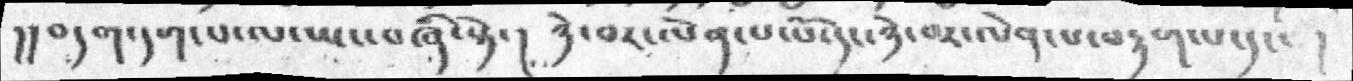།།བདག་དག་པ་ལ་ཡང་བཞི་སྟེ་།  ཉེ་བར་ལེན་པ་པོ་དང་ཉེ་བར་ལེན་པ་བརྟག་པ་དང་ །
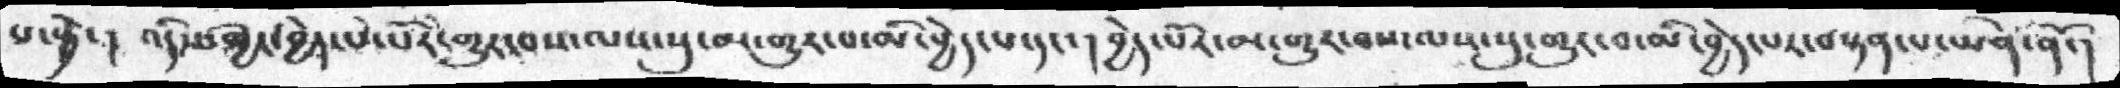པ་སྟེ་།   འདིས་གྱེར་བྱེད་པ་པོ་གྱུར་བས་ལས་སུ་མ་གྱུར་པ་མི་བྱེད་པ་དང་།  བྱེད་པོར་མ་གྱུར་བས་ལས་སུ་གྱུར་བ་མི་བྱེད་པར་བསྟན་པ་ཡིན་ནོ་།
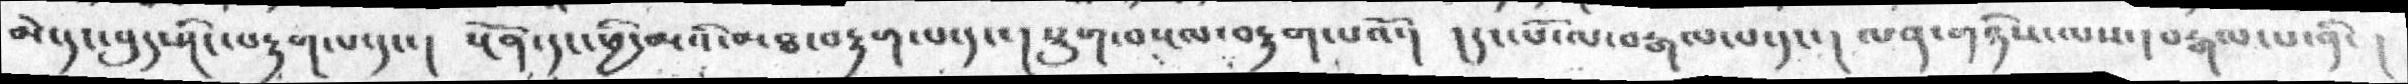མེ་དང་བུད་ཤིང་བརྟག་པ་དང་། སྔོན་དང་ཕྱི་མའི་མཐ་བརྟག་པ་དང་། སྡུག་བསྔལ་བརྟག་པའོ་།  །དང་པོ་ལ་བརྒལ་པ་དང་། ལན་གཉིས་ལས་། བརྒལ་པ་ནི་།
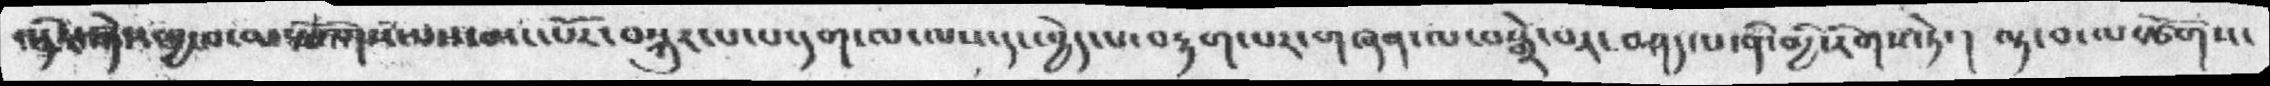འདིར་ཞེས་བྱ་བ་ལསྩོགས་པས་མང་པོ་བསྐུར་པ་པ་དག་ལ་ལས་དང་བྱེད་པ་བརྟག་པར་གཞན་ལ་བསྒྲེ་པར་བཤད་པ་ནི་མྱི་རིགས་ཏེ་།  ལྟ་བ་ལསྩོགས་
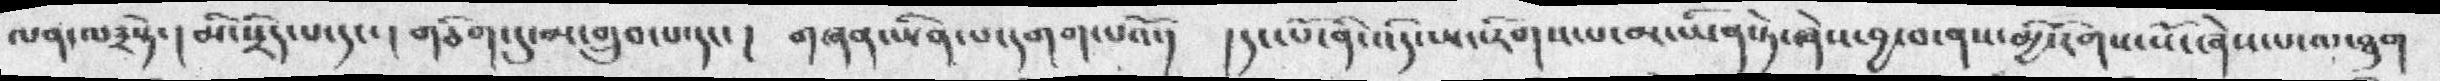ལན་ལ༣སྟེ་།  མི་སྲིད་པ་དང་།  གཅིག་དུ་མ་གྲུབ་པ་དང་། གཞན་ཡིན་པ་དགག་པའོ་། །དང་པོ་ནི་འདི་ཡང་རིགས་པ་མ་ཡིན་ཏེ་ཞེས་བྱ་བ་ནས་མྱི་རིགས་སོ་ཞེས་པ་ལ་ཐུག
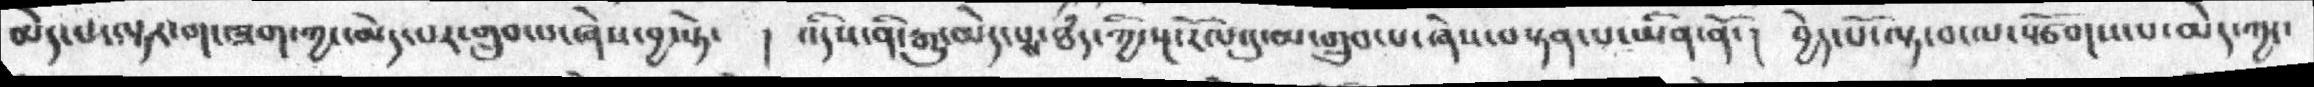མེད་པ་ལྟ་གང་ཟག་ཀྱང་མེད་པ་གྲུབ་པ་ཞེས་བྱ་སྟེ་   །  འདིས་ནི་རྒྱུ་མེད་པས་ཐཾད་ཀྱི་སྔ་རོལ་དུ་མ་གྲུབ་པ་ཞེས་བསྟན་པ་ཡིན་ནོ་།  བྱེད་པོ་ལྟ་བ་ལ་སྩོགས་པ་མེད་ཀྱང་
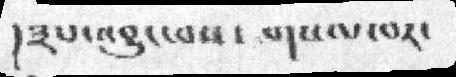།༣པ་འབྱུང་བས་ གསལ་བར་
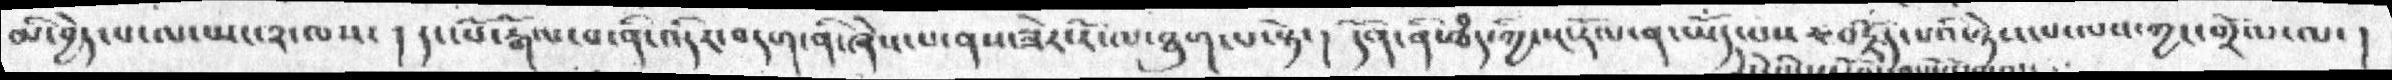མྱི་བྱེད་པ་ལ་ཡང་༢་ལས་།  དང་པོ་རྒོལ་བ་ནི་འདིར་བདག་ནི་ཞེས་པ་ནས་ཟེར་རོ་ལ་ཐུག་པ་སྟེ་།  དོན་ནི་ཐཾད་ཀྱི་སྔ་རོལ་ན་ཡོད་པས་བརྗོད་པའི་ཉེས་པ་ལས་ཀྱང་གྲོལ་།
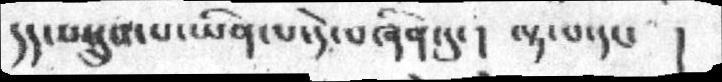དད་པ་དྲུག་པ་ཡིན་པ་དེ་བཞིན་དུ་།  ལྟ་པ་དང་  །
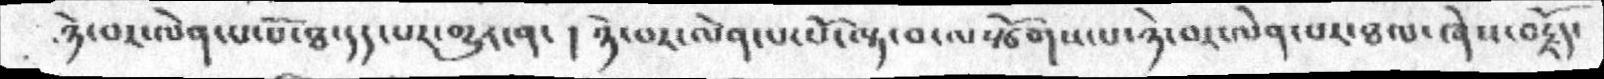ཉེ་བར་ལེན་པ་པོ་ཐ་དད་པར་གྱུར་ན་།  ཉེ་བར་ལེན་པ་པོ་ལྟ་བ་ལསྩོགས་པ་ཉེ་བར་ལེན་པར་ཐལ་ཞེས་བརྗོད་
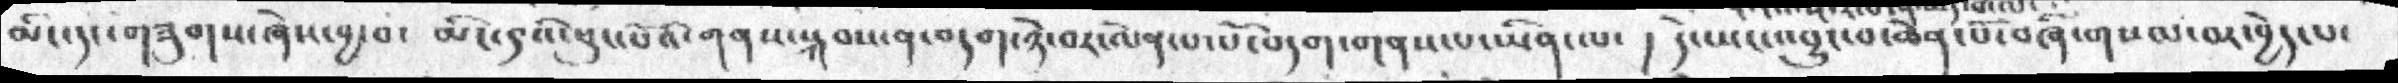མིང་དང་གཟུགས་ཞེས་བྱ་བ་ མིང་༤འི་ཕུང་པོའོ་གནས་སྐབས་ན་བདག་ཉེ་བར་ལེན་པ་པོ་བདག་གནས་པ་ཡིན་་།   དེ་ཡང་འབྱུང་་བ་ཆེན་པ་བཞི་གསལ་བར་བྱེད་པ་
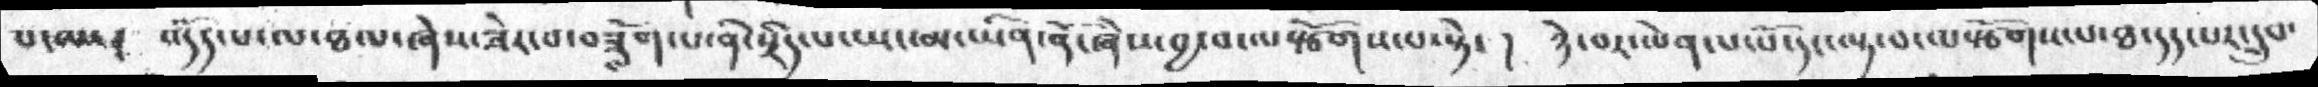པ་མ་།  འདོད་པ་ལ་ཐལ་ཞེས་ཟེར་བ་བཟློག་པ་ནི་སྲིད་པ་ཡང་མ་ཡིན་ནོ་ཞེས་བྱ་བ་ལསྩོགས་པ་སྟེ་།  ཉེ་བར་ལེན་པ་པོ་དང་ལྟ་བ་ལསྩོགས་པ་ཐ་དད་པར་དྲུབ་
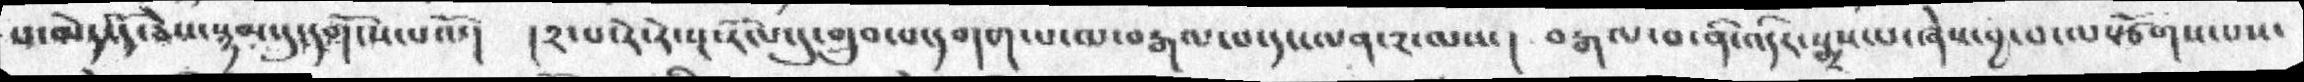པ་མེད་དོ་ཅེས་སྙམ་དུ་དགོངས་པའོ་།  །༢་པ་རེ་རེ་སྔ་རོལ་དུ་གྲུབ་པ་དགག་པ་ལ་བརྒལ་པ་དང་ལན་༢་ལས་།  བརྒལ་བ་ནི་འདིར་སྨྲས་པ་ཞེས་བྱ་བ་ལསྩོགས་པས་
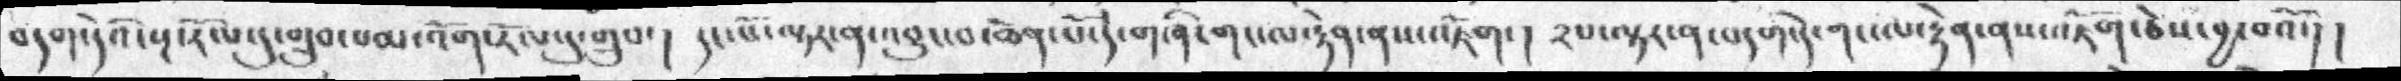བདག་དེའི་སྔ་རོལ་དུ་གྲུབ་བམ་འོག་རོལ་དུ་གྲུབ་།  དང་པོ་ལྟར་ན་འབྱུང་བ་ཆེན་པོ་དེ་གཞི་གང་ལ་རྟེན་ནས་འཇོག་། ༢པ་ལྟར་ན་བདག་དེ་གང་ལ་རྟེན་ནས་འཇོག་ཅེས་བྱ་བའོ་། །
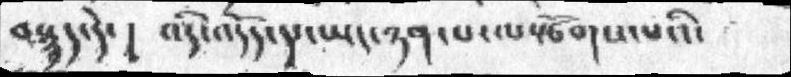བསྙད་དེ་།  འདི་འདོད་ད་ཡང་ཉན་པ་ལསྩོགས་པའི་
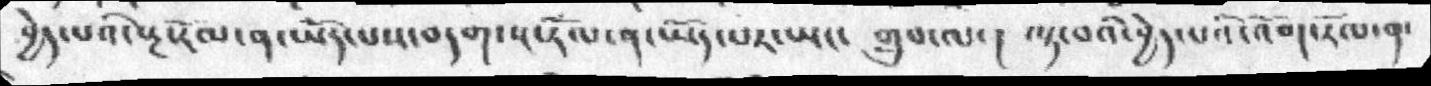བྱེད་པའི་སྔ་རོལ་ན་ཡོད་པས་བདག་སྔ་རོལ་ན་ཡོད་པར་ཡང་  གྲུབ་ལ་།  ལྟ་བའི་བྱེད་པའི་འོག་རོལ་ན་
